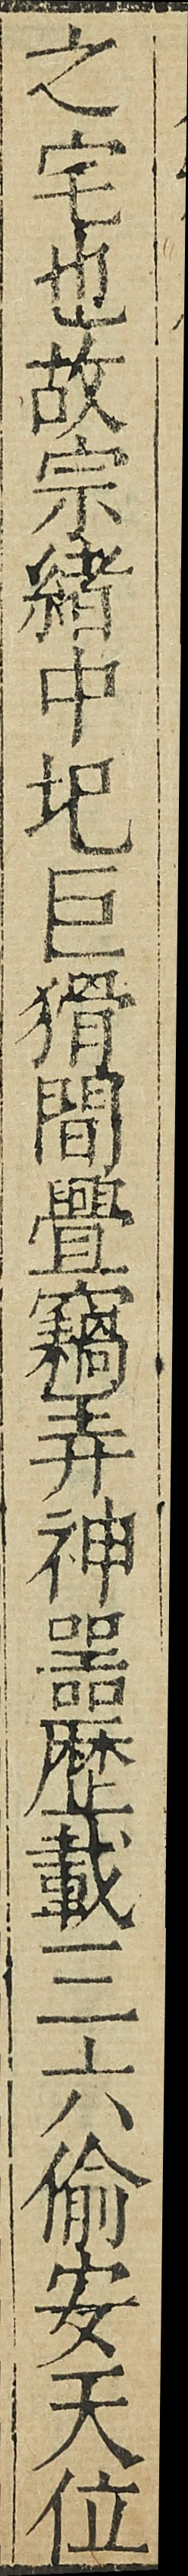之宅也故宗緒中圯巨猾間舋竊弄神器歴載三六偷安天位
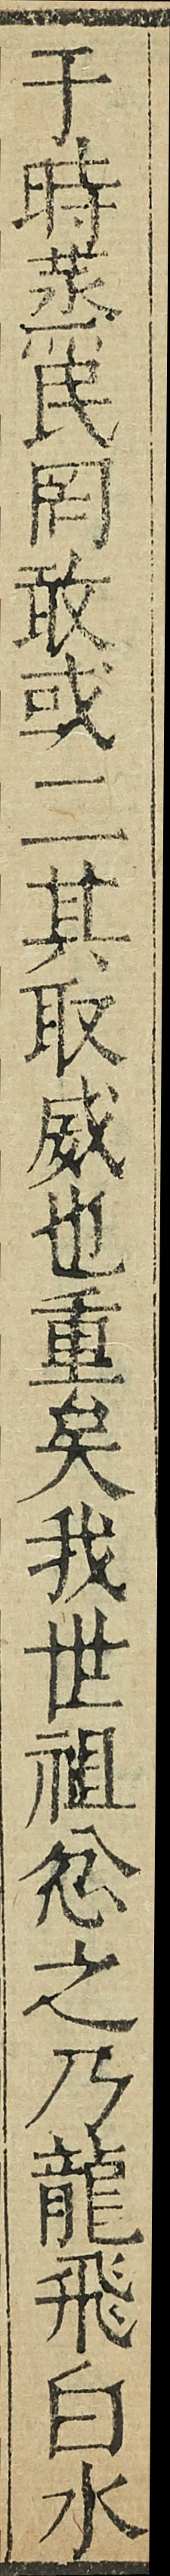于時蒸民㒺敢或貳其取威也重矣我世祖忿之乃龍飛白水
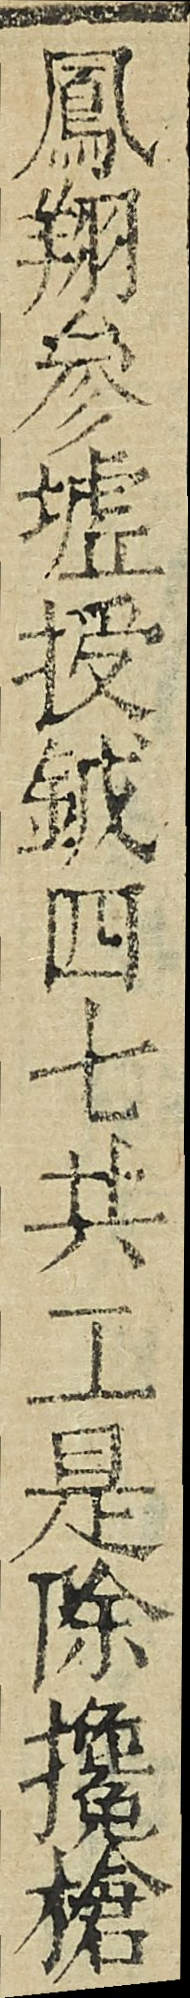鳳翔參墟授鉞四七共工是除攙槍
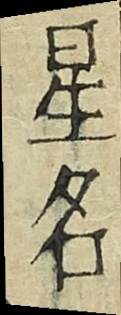星名
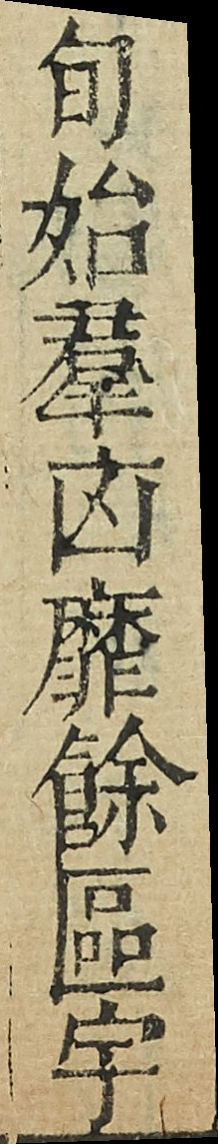旬始羣㐫靡餘區宇
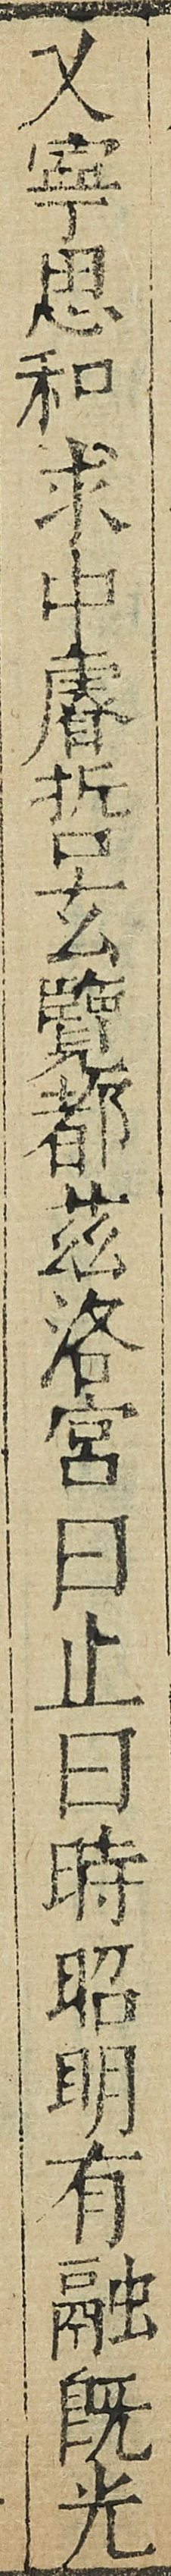乂寜思和求中睿哲玄覽都茲洛宫曰止曰時昭明有融旣光
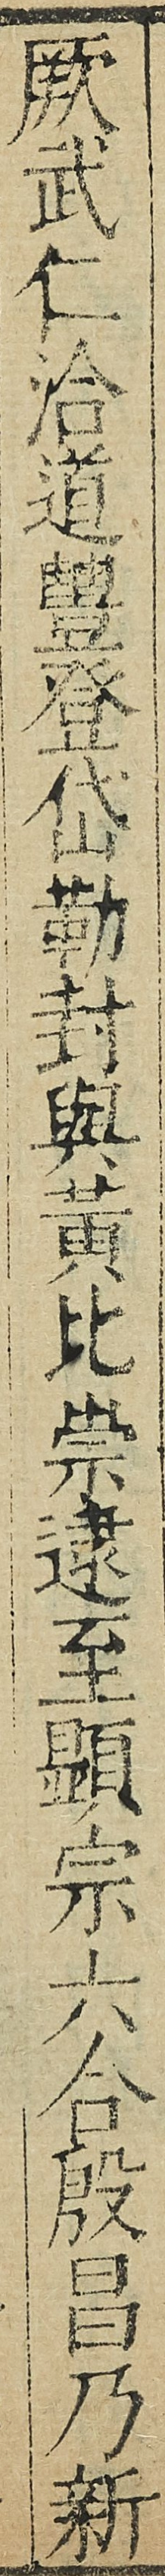厥武仁洽道豐登岱勒封與黄比崇逮至顯宗六合殷昌乃新
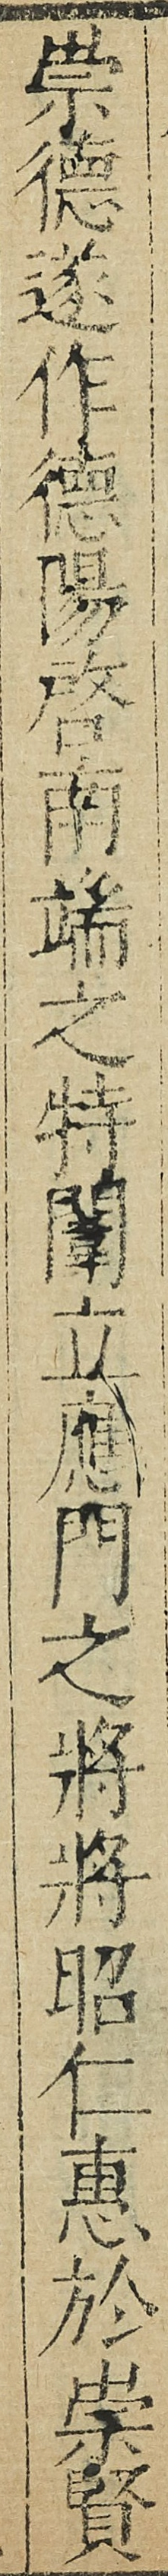崇徳遂作徳陽啓南端之特闈立應門之將將昭仁惠於崇賢
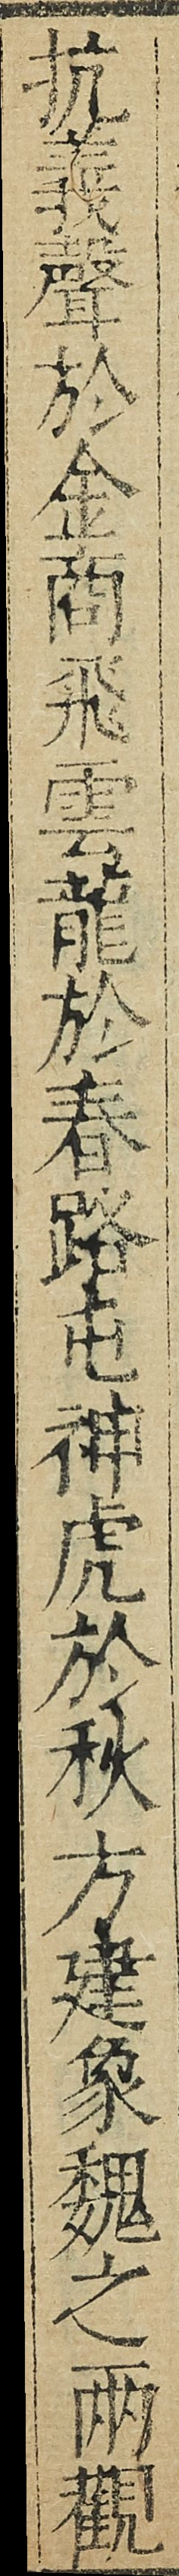抗義聲於金商飛雲龍於春路屯神虎於秋方建象魏之兩觀
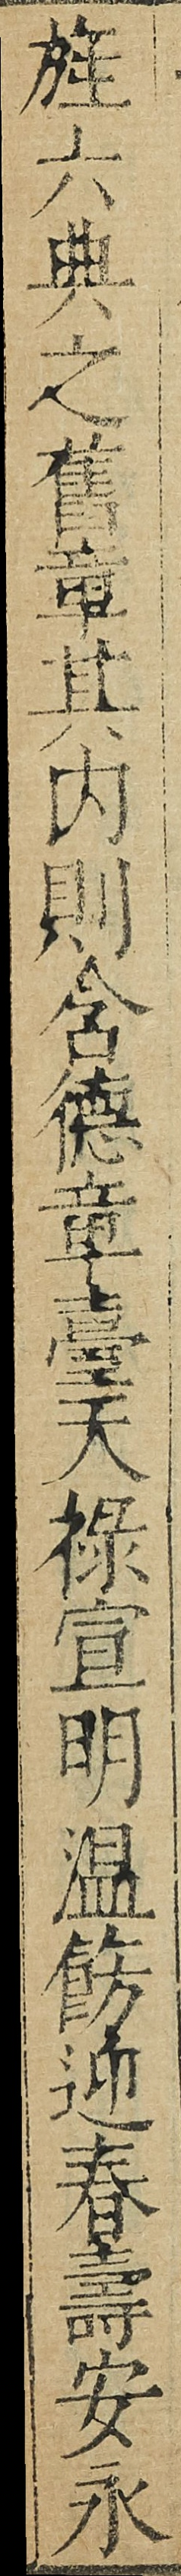旌六典之舊章其内則含徳章臺天禄宣明温飭迎春壽安永
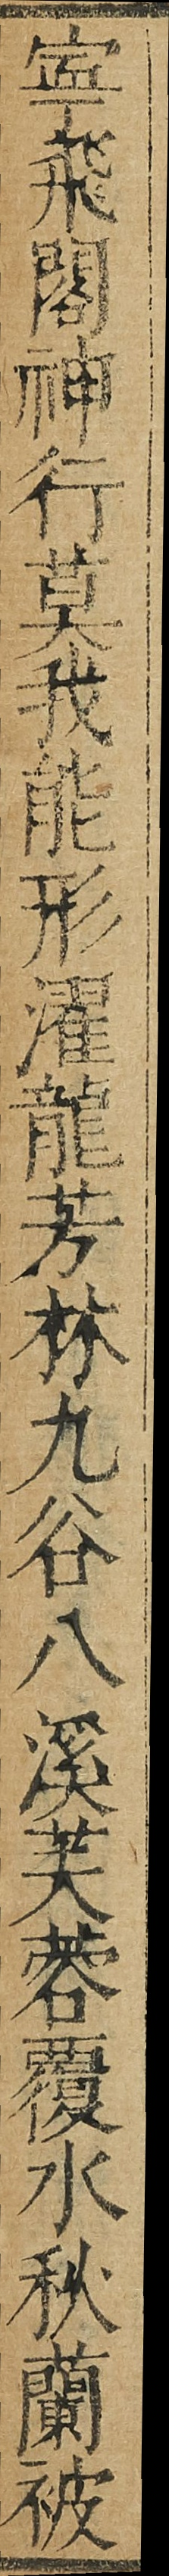寜飛閣神行莫我能形濯龍芳林九谷八溪芙蓉覆水秋蘭被
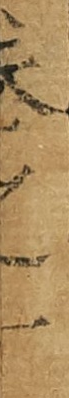卷之一
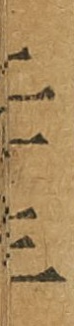二十三
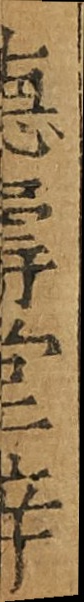德壽堂梓
